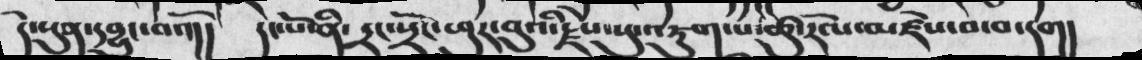དེ་སུན་དབྱུག་བའོ།། དང་པོ་ནི་དྲང་སྲོང་ཕུར་བུའི་རྗེས་སུ་འཇུག་པ་ཚུ་རོལ་མཛེས་བ་བ་དག།
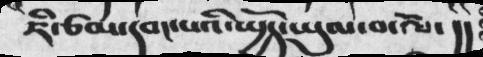ཇི་ཙམ་དབང་པའི་སྤྱོད་ཡུལ་བ་ལོ་།།
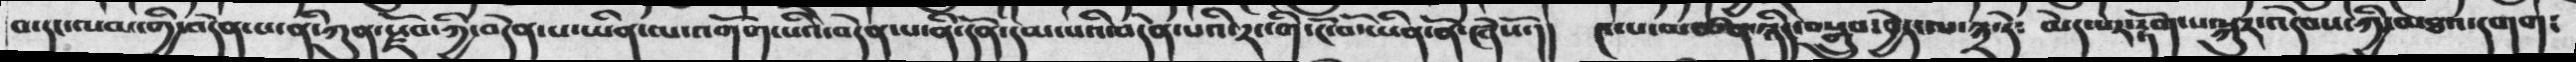བ་དང་ལམ་གྱི་བདེན་པ་ནི་ཀུན་སྫོབ་ཀྱི་བདེན་པ་ཡིན་ལ་འགོག་པའི་བདེན་པ་ནི་དོན་དམ་པའི་བདེན་པའི་རང་གི་ངོ་བོ་ཡིན་ནོ་ཞེསོ་།། ༤་པ་མཚན་ཉིད་བསྒྲུབ་བྱེད་ལ་༣་ཏེ༴ མེད་པར་རྟོག་པ་སྐུར་འདེབས་ཀྱི་མཐའ་དགག༴
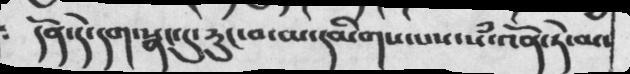དོན་དེ་དག་སྣང་དུ་རུང་བ་མ་དམིགས་པས་སྃ་འོན་ཏེ་མ་
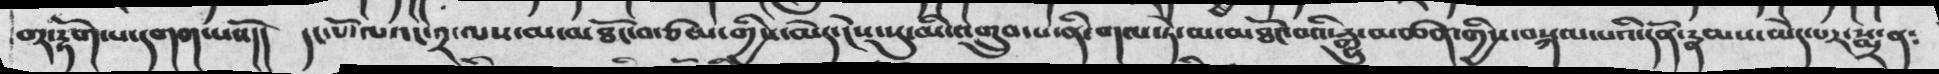བར་རྟོག་པ་དགག་པ་པསོ།།  དང་པོ་ལའང་༢་ལས་མ་མཐོང་བ་ཙམ་གྱིས་མེད་ངེས་སུ་མི་འགྲུབ་པ་ནི་གལ་ཏེ་མ་མཐོང་བའི་རྒྱུ་མཚན་གྱི་བསྐལ་པའི་དོན་རྣམས་མེད་པར་སྨྲ་ན༴ ཉ
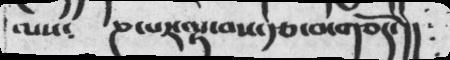ལས༴    ཎ་པར་ལྟ་བས་རྩ་བ་གཅོད་།།
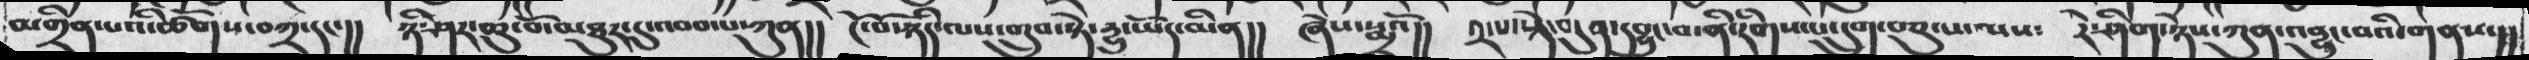མགྲིན་པའི་ཚོགས་བཀྲ་དང་།། ཉི་ཤར་ཆུ་བོ་མཐུར་དུ་འབབ་པ་ཀུན།། ངོ་བོ་ཉིད་ལས་གྲུབ་སྟེ་དྱུ་ཡོད་མིན།། ཞེས་སྨྲའོ།། ༢་པ་སྟེ་བདུན་དབྱུང་བ་ནི་རིགས་པ་དྲུག་བཅུ་པ་ལས༴ རེ་ཤིག་ཉེས་ཀུན་འབྱུང་བའི་གནས་།།
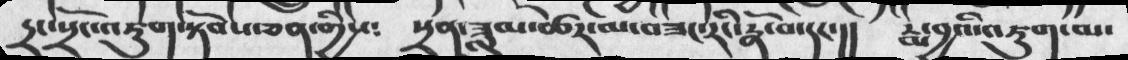དྲང་སྲོང་འཇུག་སྟོབས་ཅན་གྱིས༴ སྲན་ཟླུམ་ཚེར་མ་བཟང་རིང་རྣོ་བ་དང་།། རྨ་བྱའི་འཇུག་མ་
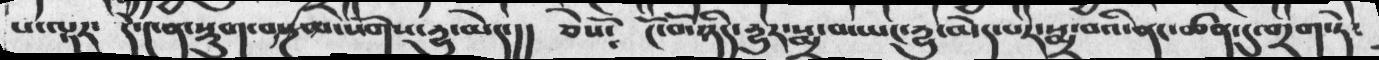པ་ལྟར་ དེ་༤ན་སྡུག་བསྔལ་སོགས་དྱུ་མེད་།། ཅེསོ༴ ངོ་བོ་ཉིད་དྱུར་སྨྲ་བ་ཡང་དྱུ་མེད་པར་སྨྲ་བའི་ནང་ཚན་དུ་གྲག་ཏེ་
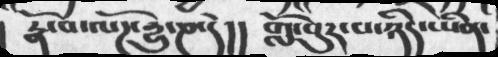རྣོ་བ་ལོཌ་དྱུ་ཎ་དེ།། གློ་བུར་པ་ཉིད་ཡིན་
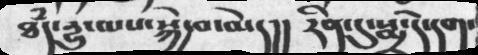ཐཾད་དྱུ་ལས་སྐྱེ་བ་མེད།། རིན་དུ་སྨྲ་དེ་དག་
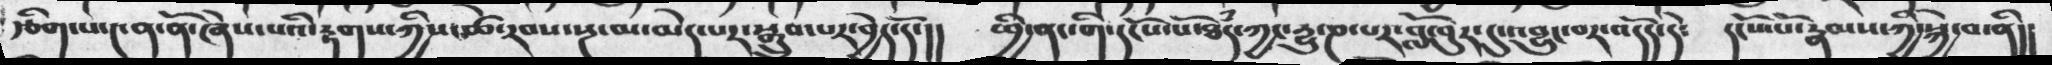རྩིག་པ་༤ན་ནོ་ཞེས་པའི་རྟགས་ཀྱིས་ཚེ་རབས་སྔ་མ་མེད་པར་སྒྲུབ་པར་བྱེད་དོ་།།  ཕྱི་ནང་གི་དངོས་པོ་ཐཾད་ཀྱང་དྱུ་ཎ་པར་བློ་བུ་དུ་འབྱུང་བར་འདོད་དེ༴ དངོས་པོ་རྣམས་ཀྱི་སྐྱེ་བ་ནི།།
